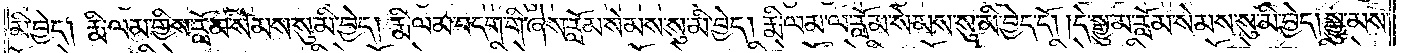མི་བྱེད། རྨི་ལམ་གྱིས་རློམ་སེམས་སུ་མི་བྱེད། རྨི་ལམ་བདག་གི་ཞེས་རློམ་སེམས་སུ་མི་བྱེད། རྨི་ལམ་ལ་རློམ་སེམས་སུ་མི་བྱེད་དོ། །དེ་སྒྱུ་མ་རློམ་སེམས་སུ་མི་བྱེད། སྒྱུ་མས་
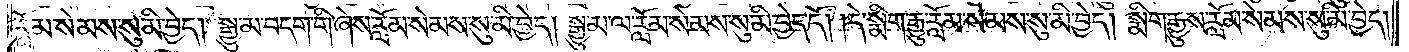རློམ་སེམས་སུ་མི་བྱེད། སྒྱུ་མ་བདག་གི་ཞེས་རློམ་སེམས་སུ་མི་བྱེད། སྒྱུ་མ་ལ་རློམ་སེམས་སུ་མི་བྱེད་དོ། །དེ་སྨིག་རྒྱུ་རློམ་སེམས་སུ་མི་བྱེད། སྨིག་རྒྱུས་རློམ་སེམས་སུ་མི་བྱེད།
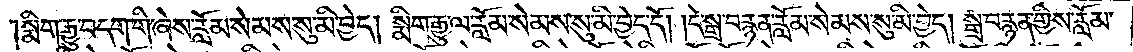སྨིག་རྒྱུ་བདག་གི་ཞེས་རློམ་སེམས་སུ་མི་བྱེད། སྨིག་རྒྱུ་ལ་རློམ་སེམས་སུ་མི་བྱེད་དོ། །དེ་སྒྲ་བརྙན་རློམ་སེམས་སུ་མི་བྱེད། སྒྲ་བརྙན་གྱིས་རློམ་
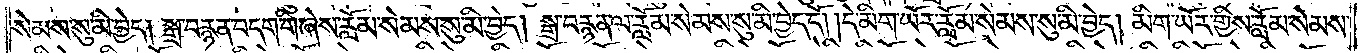སེམས་སུ་མི་བྱེད། སྒྲ་བརྙན་བདག་གི་ཞེས་རློམ་སེམས་སུ་མི་བྱེད། སྒྲ་བརྙན་ལ་རློམ་སེམས་སུ་མི་བྱེད་དོ། །དེ་མིག་ཡོར་རློམ་སེམས་སུ་མི་བྱེད། མིག་ཡོར་གྱིས་རློམ་སེམས་
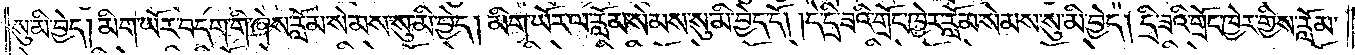སུ་མི་བྱེད། མིག་ཡོར་བདག་གི་ཞེས་རློམ་སེམས་སུ་མི་བྱེད། མིག་ཡོར་ལ་རློམ་སེམས་སུ་མི་བྱེད་དོ། །དེ་དྲི་ཟའི་གྲོང་ཁྱེར་རློམ་སེམས་སུ་མི་བྱེད། དྲི་ཟའི་གྲོང་ཁྱེར་གྱིས་རློམ་
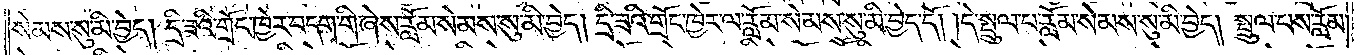སེམས་སུ་མི་བྱེད། དྲི་ཟའི་གྲོང་ཁྱེར་བདག་གི་ཞེས་རློམ་སེམས་སུ་མི་བྱེད། དྲི་ཟའི་གྲོང་ཁྱེར་ལ་རློམ་སེམས་སུ་མི་བྱེད་དོ། །དེ་སྤྲུལ་པ་རློམ་སེམས་སུ་མི་བྱེད། སྤྲུལ་པས་རློམ་
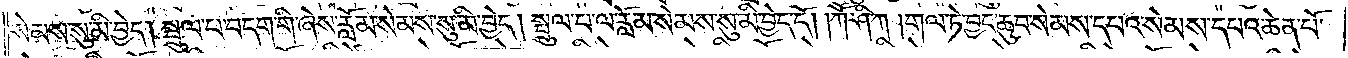སེམས་སུ་མི་བྱེད། སྤྲུལ་པ་བདག་གི་ཞེས་རློམ་སེམས་སུ་མི་བྱེད། སྤྲུལ་པ་ལ་རློམ་སེམས་སུ་མི་བྱེད་དོ། །ཀཽ་ཤི་ཀ། གལ་ཏེ་བྱང་ཆུབ་སེམས་དཔའ་སེམས་དཔའ་ཆེན་པོ་
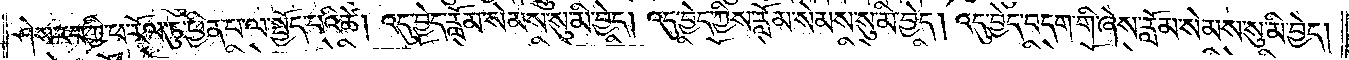ཤེས་རབ་ཀྱི་ཕ་རོལ་ཏུ་ཕྱིན་པ་ལ་སྤྱོད་པའི་ཚེ། འདུ་བྱེད་རློམ་སེམས་སུ་མི་བྱེད། འདུ་བྱེད་ཀྱིས་རློམ་སེམས་སུ་མི་བྱེད། འདུ་བྱེད་བདག་གི་ཞེས་རློམ་སེམས་སུ་མི་བྱེད།
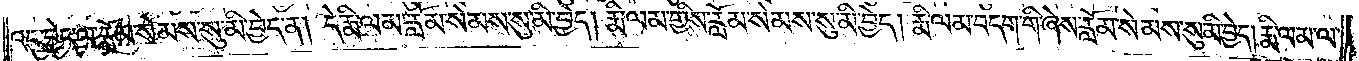འདུ་བྱེད་ལ་རློམ་སེམས་སུ་མི་བྱེད་ན། དེ་རྨི་ལམ་རློམ་སེམས་སུ་མི་བྱེད། རྨི་ལམ་གྱིས་རློམ་སེམས་སུ་མི་བྱེད། རྨི་ལམ་བདག་གི་ཞེས་རློམ་སེམས་སུ་མི་བྱེད། རྨི་ལམ་ལ་
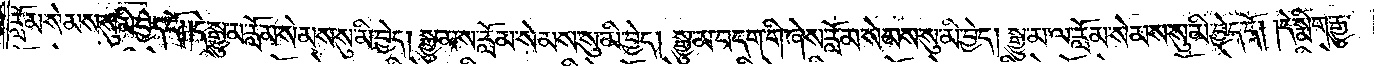རློམ་སེམས་སུ་མི་བྱེད་དོ། །དེ་སྒྱུ་མ་རློམ་སེམས་སུ་མི་བྱེད། སྒྱུ་མས་རློམ་སེམས་སུ་མི་བྱེད། སྒྱུ་མ་བདག་གི་ཞེས་རློམ་སེམས་སུ་མི་བྱེད། སྒྱུ་མ་ལ་རློམ་སེམས་སུ་མི་བྱེད་དོ། །དེ་སྨིག་རྒྱུ་
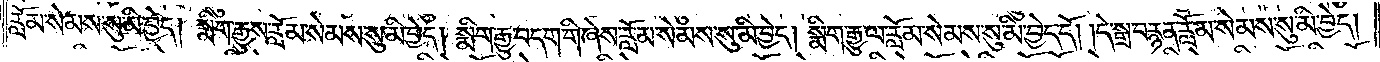རློམ་སེམས་སུ་མི་བྱེད། སྨིག་རྒྱུས་རློམ་སེམས་སུ་མི་བྱེད། སྨིག་རྒྱུ་བདག་གི་ཞེས་རློམ་སེམས་སུ་མི་བྱེད། སྨིག་རྒྱུ་ལ་རློམ་སེམས་སུ་མི་བྱེད་དོ། །དེ་སྒྲ་བརྙན་རློམ་སེམས་སུ་མི་བྱེད།
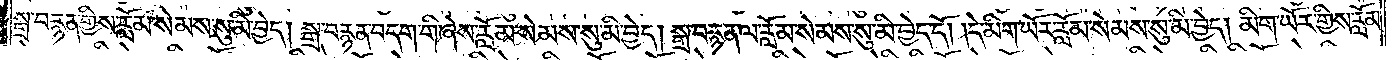སྒྲ་བརྙན་གྱིས་རློམ་སེམས་སུ་མི་བྱེད། སྒྲ་བརྙན་བདག་གི་ཞེས་རློམ་སེམས་སུ་མི་བྱེད། སྒྲ་བརྙན་ལ་རློམ་སེམས་སུ་མི་བྱེད་དོ། །དེ་མིག་ཡོར་རློམ་སེམས་སུ་མི་བྱེད། མིག་ཡོར་གྱིས་རློམ་
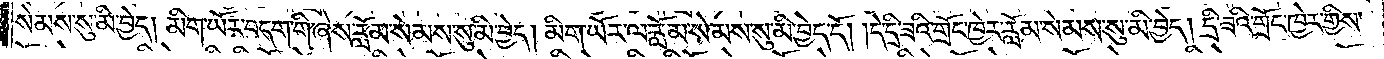སེམས་སུ་མི་བྱེད། མིག་ཡོར་བདག་གི་ཞེས་རློམ་སེམས་སུ་མི་བྱེད། མིག་ཡོར་ལ་རློམ་སེམས་སུ་མི་བྱེད་དོ། །དེ་དྲི་ཟའི་གྲོང་ཁྱེར་རློམ་སེམས་སུ་མི་བྱེད། དྲི་ཟའི་གྲོང་ཁྱེར་གྱིས་
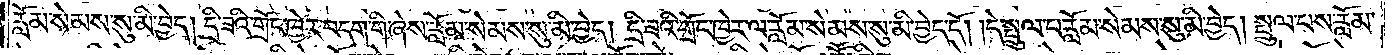རློམ་སེམས་སུ་མི་བྱེད། དྲི་ཟའི་གྲོང་ཁྱེར་བདག་གི་ཞེས་རློམ་སེམས་སུ་མི་བྱེད། དྲི་ཟའི་གྲོང་ཁྱེར་ལ་རློམ་སེམས་སུ་མི་བྱེད་དོ། །དེ་སྤྲུལ་པ་རློམ་སེམས་སུ་མི་བྱེད། སྤྲུལ་པས་རློམ་
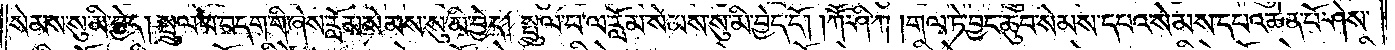སེམས་སུ་མི་བྱེད། སྤྲུལ་པ་བདག་གི་ཞེས་རློམ་སེམས་སུ་མི་བྱེད། སྤྲུལ་པ་ལ་རློམ་སེམས་སུ་མི་བྱེད་དོ། །ཀཽ་ཤི་ཀ། གལ་ཏེ་བྱང་ཆུབ་སེམས་དཔའ་སེམས་དཔའ་ཆེན་པོ་ཤེས་
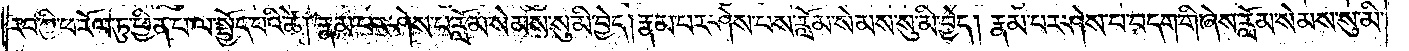རབ་ཀྱི་ཕ་རོལ་ཏུ་ཕྱིན་པ་ལ་སྤྱོད་པའི་ཚེ། རྣམ་པར་ཤེས་པ་རློམ་སེམས་སུ་མི་བྱེད། རྣམ་པར་ཤེས་པས་རློམ་སེམས་སུ་མི་བྱེད། རྣམ་པར་ཤེས་པ་བདག་གི་ཞེས་རློམ་སེམས་སུ་མི་
